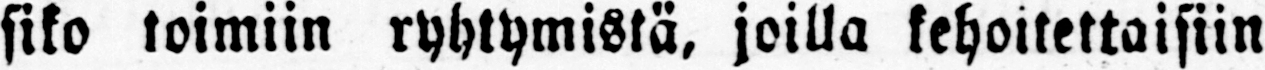siko toimiin ryhtymistä, joilla kehoitettaisiin
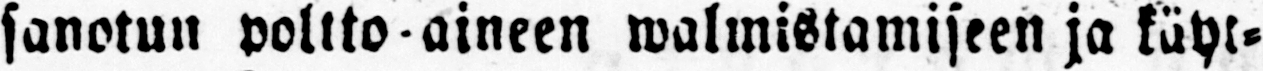sanotun poltto - aineen walmistamiseen ja käyt-
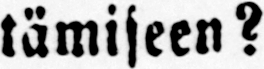tämiseen?
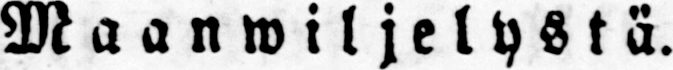Maanwiljelystä.
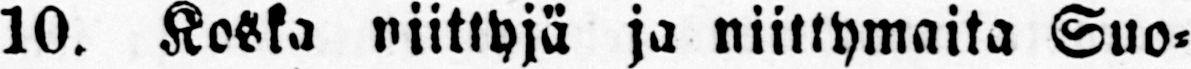10. Koska niittyjä ja niittymaita Suo-
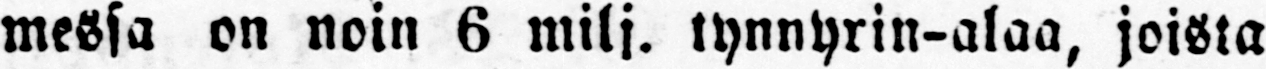messa on noin 6 milj. tynnyrin-alaa, joista
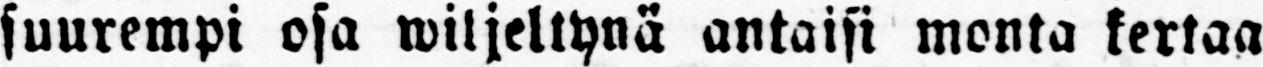suurempi osa wiljeltynä antaisi monta kertaa
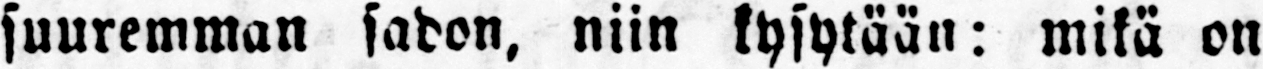suuremman sadon, niin kysytään: mikä on
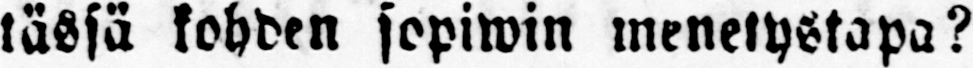tässä kohden sopiwin menetystapa?
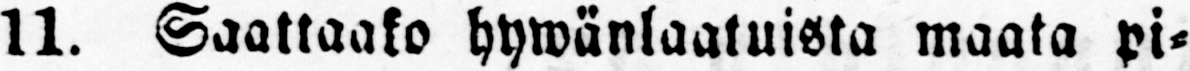11. Saattaako hywänlaatuista maata pi-
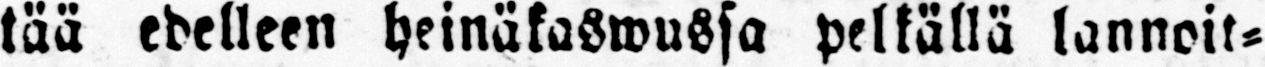tää edelleen heinäkaswussa pelkällä lannoit-
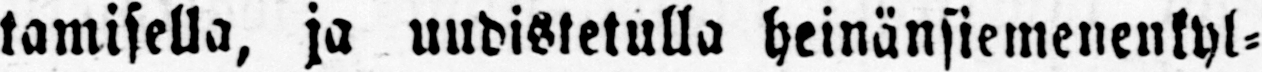tamisella, ja uudistetulla heinänsiemenenkyl-
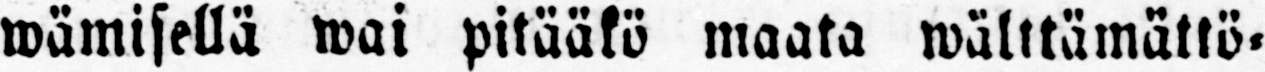wämisellä wai pitääkö maata wälttämättö-
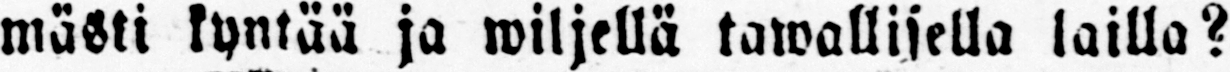mästi kyntää ja wiljellä tawallisella lailla?
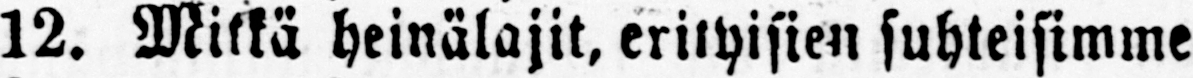12. Mitkä heinälajit, erityisien suhteisimme
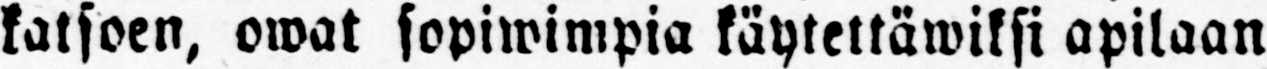katsoen, owat sopiwimpia käytettäwiksi apilaan
